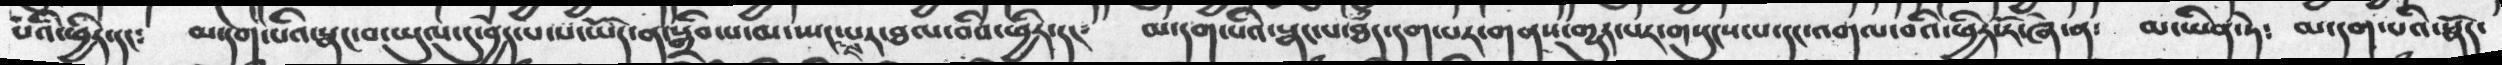པའི་ཕྱིར༴  མ་དག་པའི་སྣང་བ་ཡུལ་དུ་བྱེད་པ་པ་ཡོད་ན་སྒྲིབ་པ་མ་སྤངས་པར་ཐལ་བའི་ཕྱིར་དང༴   མ་དག་པའི་སྣང་པ་ཐཾད་དག་པར་གནས་གྱུར་པར་གསུངས་པ་དང་འགལ་བའི་ཕྱིར་རོ་ཞེ་ན༴  མ་ཡིན་ཏེ༴  མ་དག་པའི་སྣོད་
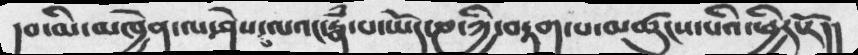།བ་མི་མཁྱེན་ལ་ཤེས་པ་ལའང་རྣཾ་པ་ཡོད་ཎ་ཀྱི་བརྟག་པ་མཚུངས་པའི་ཕྱིར་རོ།།
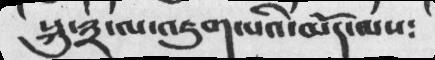སྐུ་༣་ལ་འཇུག་པའི་མདོ་ལས༴
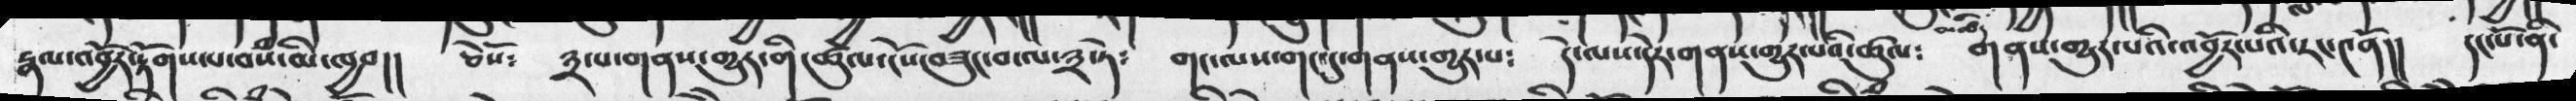རྣལ་འབྱོར་རྟོགས་པ་བསཾ་མི་ཁྱབ།།  ཅེསོ༴  ༣་པ་གནས་གྱུར་གི་ཚུལ་ངོས་བཟུང་བ་ལ་༣་ཏེ༴   གང་ལས་གང་དུ་གནས་གྱུར་པ༴  དེ་ལས་དེར་གནས་གྱུར་པའི་ཚུལ༴  གནས་གྱུར་པའི་འབྱོར་པའི་རང་༤ནོ།།  དང་པོ་ནི་
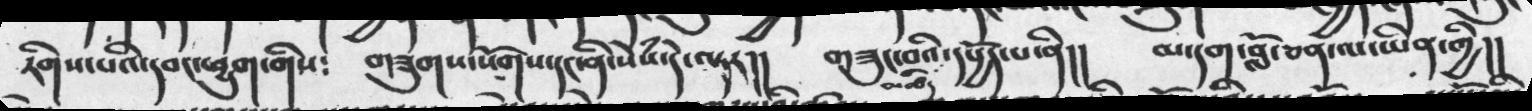རིགས་པའི་དབང་ཕྱུག་གིས༴   གཟུགས་སོགས་དང་ནི་སེཾས་དེ་ལྟར།།  གཟུང་བའི་མཚིད་དཔྱོད་པ་ནི།།   མ་དག་བློ་ཅན་ལ་ཡིན་གྱི།།
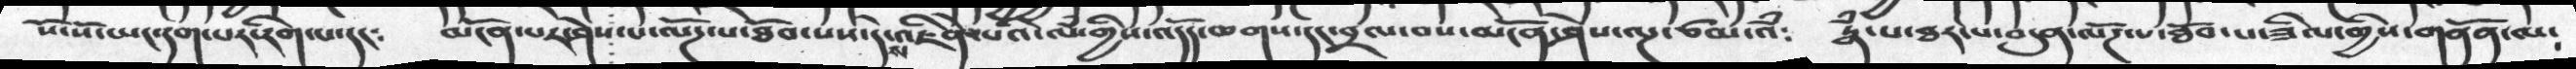སོ་སོ་ཡང་དག་པར་རིག་པ་དང༴   མངོན་པར་ཤེས་པ་ལོཌ་པ་ཐོབ་པས་དེས་འཇིེན་པའི་ལཾ་གྱིས་འདོད་ཆགས་དང་བྲལ་བས་མངོན་ཤེས་ལྔ་ཙམ་འཾ༴   རྣཾ་པ་ཐར་པ་བདུན་ལོཌ་པ་ཐོབ་པ་ཟིལ་གྱིས་གནོན་ལ༴
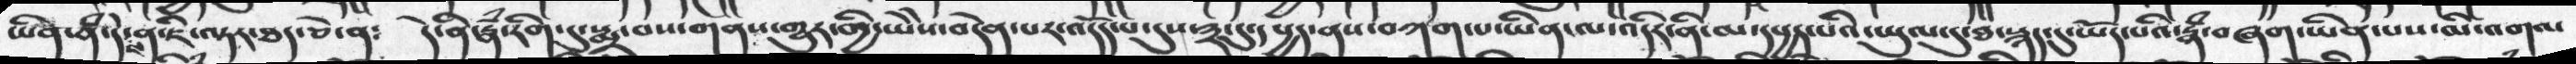ཡིན་ནཾ་དེས་ན་ཇི་ལྟར་ཐད་ཅེ༴   དེ་ནི་རྣཾ་རིག་དུ་སྨྲ་བས་གནས་གྱུར་གྱི་ཡེེས་བདེན་པར་འདོད་པ་དུས་༣་དུ་དཔྱད་ནས་བཀག་པ་ཡིན་ལ་འདིར་ནི་མ་དཔྱད་པའི་ཡུལ་དུ་ཐ་སྙད་དུ་ཡོད་པའི་རྣཾ་བཞག་ཡིན་པས་མི་འགལ
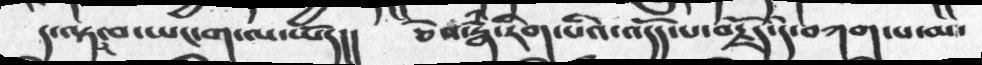ད་ལྟར་བ་ཡང་ག་ལ་ཡོད།།   ཅེས་རྣཾ་རིག་པའི་འདོད་པ་བརྗོད་དེ་བཀག་པ་མ་
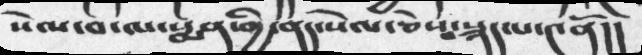སེལ་བ་ལ་སྨན་གྱི་ནད་སེལ་ཅེས་པ་སྐད་པ་༤ནོ།།
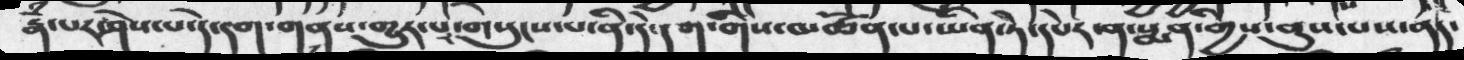རྣཾ་པར་ཤེས་པ་དེ་དག་གནས་གྱུར་པར་གསུངས་པ་ནི་དེ་དག་གིས་མཚོན་པ་ཡིན་ཏེ་དཔེར་ན་སྨན་གྱིས་ནུས་པས་ནད་
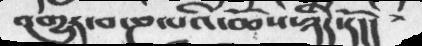འགྱུར་བ་ཎ་པའི་ཆོས་ཉིད་དོ།།
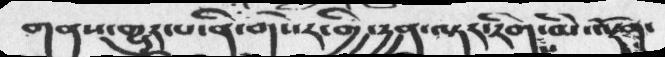གནས་གྱུར་པ་ནི་གསེར་གྱི་དྱན་ལྟར་རིག་པ་མི་ལྡོག་
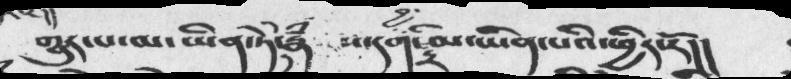གྱུར་པ་མ་ཡིན་ཏེ་དེ་རྣཾ   ས་དག་དྲི་མ་ཡིན་པའི་ཕྱིར་རོ།།
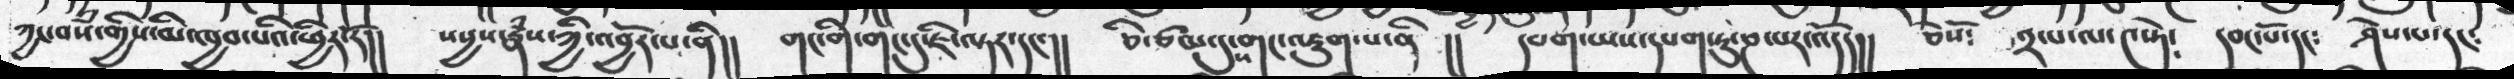ཀྱང་བསཾ་གྱིས་མི་ཁྱབ་པའི་ཕྱིར་རོ།།  སདྱས་རྣཾས་ཀྱི་འབྱོར་པ་ནི།།  གང་གི་གང་དུ་ཇི་ལྟར་དང་།  ཅི་ཙམ་དུས་གང་འཇུག་པ་ནི  །།  དཔག་ཡས་དཔག་ཏུ་ཎ་པར་འདོད།།  ཅེསོ༴  ༢་པ་ལ་༤སྟེ༴  དབང་པོ་དང༴  ཤེས་པ་དང༴
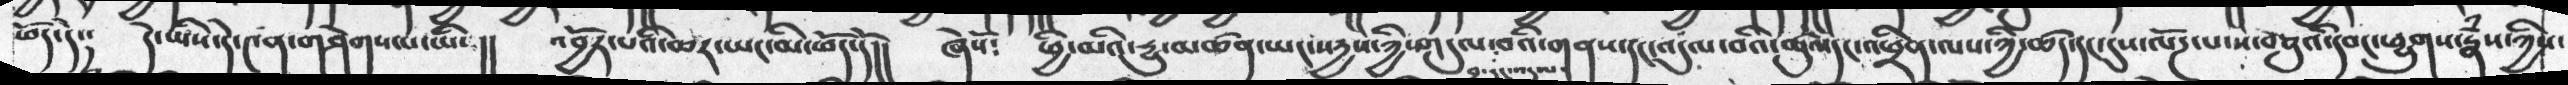ཕོད་དེ་༴  དེ་ཡིས་དེ་༤ན་གཤེགས་པ་ཡིས།།  འབྱོར་པའི་ཆར་ཡང་མི་ཕོད་དོ།།  ཞེསོ༴ ཕྱི་མའི་དྱུ་མཚན་ཡང་སདྱས་ཀྱི་གདུལ་བྱ་རང་འདུལ་བའི་གནས་དང་འདུལ་བའི་ཚུལ་དང་འཕྲིན་ལས་ཀྱི་ཚད་དང་དུས་ལོཌ་པ་ས་བཅུའི་དབང་ཕྱུགས་རྣཾས་ཀྱིས་
